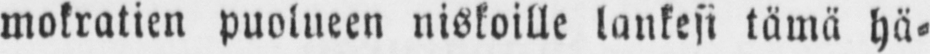mokratien puolueen niskoille lankesi tämä ha-
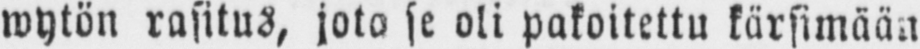wytön rasitus, jota se oli pakoitettu kärsimään.
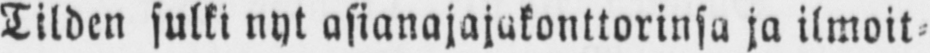Tilden sulki nyt asianajajakonttorinsa ja ilmoit-
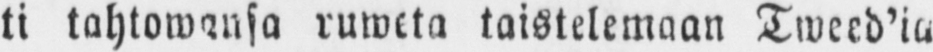ti tahtowansa ruweta taistelemaan Tweed’ia
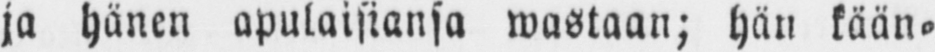ja hänen apulaistansa wastaan; hän kään-
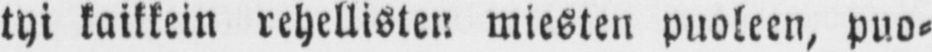tyi kaikkein rehellisten miesten puoleen, puo-
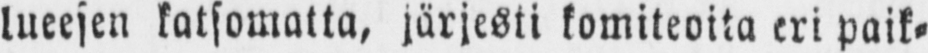lueesen katsomatta, järjesti komiteoita eri paik-
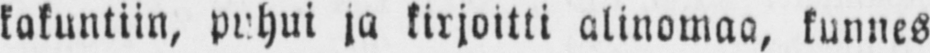kakuntiin, puhui ja kirjoitti alinomaa, kunnes
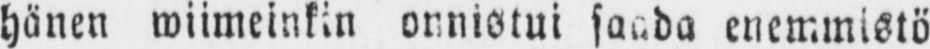hänen wiimeinkin onnistui saada enemmistö
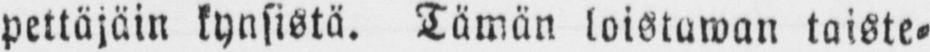pettäjäin kynsistä. Tämän loistawan taiste-
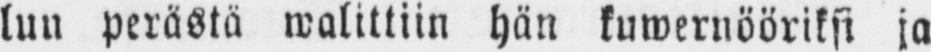lun perästä walittiin hän kuwernööriksi ja
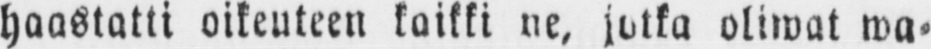haastatti oikeuteen kaikki ne, jotka oliwat wa-
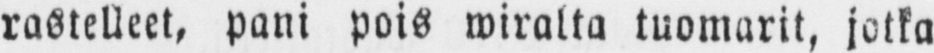rastelleet, pani pois wiralta tuomarit, jotka
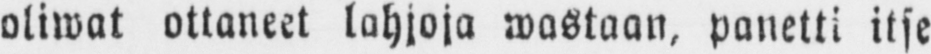oliwat ottaneet lahjoja wastaan, panetti itse
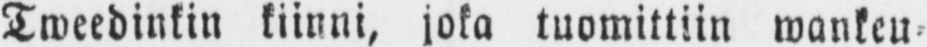Tweedinkin kiinni, joka tuomittiin wankeu-
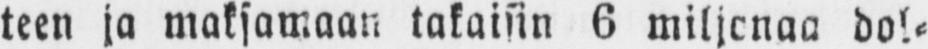teen ja maksamaan takaisin 6 miljonaa dol-
